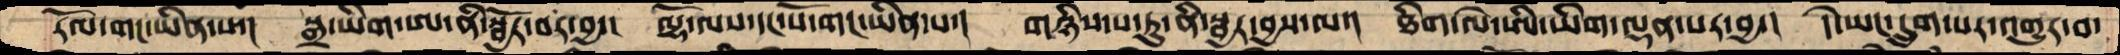རོལ་གང་ཡིན་པ་།  སྒྲ་ཡིག་ཨ་ནི་སྦྱོར་བར་བྱ་།  ལྷོ་ལས་དང་པོ་གང་ཡིན་པ་།  གཉིས་པ་ཏུ་ནི་སྦྱར་བྱས་ལ་།  ཐིག་ལེ་ཨི་ཡིག་ལྡན་པར་བྱ་།  དེ་ཡང་དྲུག་པར་འགྱུར་བ་
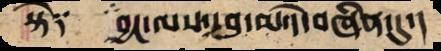སྟེ༑   བྱང་ལས་དབུ་མ་དེ་བཞིན་དུ་།
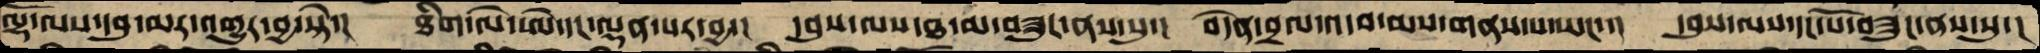ལྷོ་ལས་དབུ་མར་འགྱུར་བྱ་སྟེ་།  ཐིག་ལེ་ཨེ་དང་ལྡན་པར་བྱ་།  དབུས་ལས་ཐ་མ་བཟུང་ནས་སུ་།  བདེན་བྲལ་འདབ་མས་གནས་པ་ཡང་་།  དབུས་ལས་དང་པོ་བཟུང་ནས་སུ་།
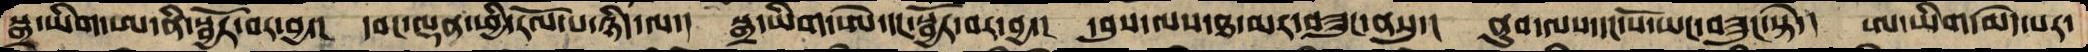སྒྲ་ཡིག་ཨ་ནི་སྦྱོར་བར་བྱ་།  དབང་ལྡན་ཕྱི་རོལ་པ་ཉིད་ལ་།  སྒྲ་ཡིག་ཨེ་དང་སྦྱོར་བར་བྱ་།  དབུས་ལས་ཐ་མར་བཟུང་ནསུ་།  ནུབ་ལས་དང་པོ་ཡང་བཟུང་སྟེ་།  ཨ་ཡིག་མེད་པར་
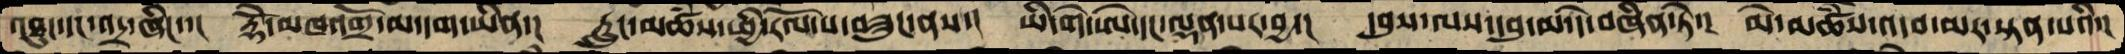འཐུང་དང་འདྲ་ཞིང་་།  རྡོེ་མཁའགྲོ་མ་དག་ཡིན་།   རླུང་མཚཾས་ཕྱི་རོལ་ས་བཟུང་ནས་།  ཡི་གེ་ཨེ་དང་ལྡན་པར་བྱ་།  དབུས་ལས་དབུ་མ་དེ་བཞིན་ཏེ་།  མེ་མཚཾས་འདབ་མར་སྟན་པའི་།
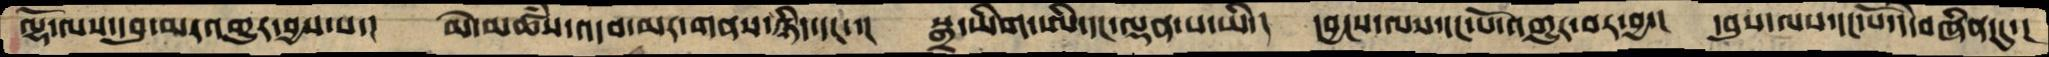ལྷོ་ལས་དབུ་མར་འགྱུར་བྱས་པ་།  མེ་མཚཾས་འདབ་མར་གནས་ཉིད་ང་་།  སྒྲ་ཡིག་ཨི་དང་ལྡན་པ་ཡི་།  དབྱངས་ལས་དང་པོ་འགྱུར་བར་བྱ་།  དབུས་ལས་དང་པོ་དེ་བཞིན་དུ་།
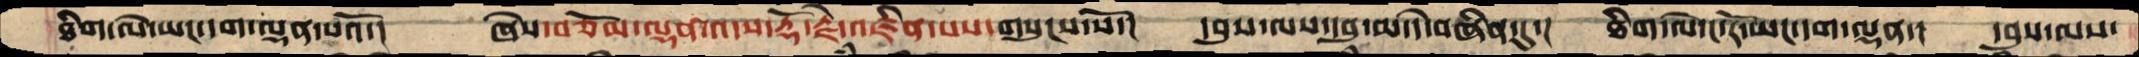ཐིག་ལེ་ཡང་དག་ལྡན་པའོ་།  ཞེས་བཅོམ་ལྡན་འདས་རྡོ་རྗེ་འཛིན་པས་གསུངས་སོ་།  དབུས་ལས་དབུ་མ་དེ་བཞིན་དུ་།  ཐིག་ལེ་ང་རོ་ཡང་དག་ལྡན་།  དབུས་ལས་
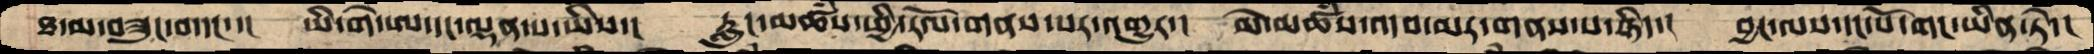ཐ་མ་བཟུང་བ་དང་་།  ཡི་གེ་ཨ་དང་ལྡན་པ་ཡིས་།  རླུང་མཚཾས་ཕྱི་རོལ་གནས་པར་འགྱུར་།  མེ་མཚཾས་འདབ་མར་གནས་པ་ཉིད་།  བྱང་ལས་དང་པོ་གང་ཡིན་ཏེ་།
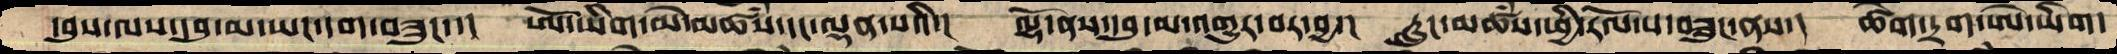དབུས་ལས་དབུ་མ་ཡང་དག་བཟུང་་།  ཨོ་ཡིག་མེ་མཚམས་དང་ལྡན་པའི་།  ལྷོ་ནས་དབུ་མ་འགྱུར་བར་བྱ་།  རླུང་མཚཾས་ཕྱི་རོལ་པ་བཟུང་ནས་།  ཚེག་དྲག་ཨེ་ཡིག་
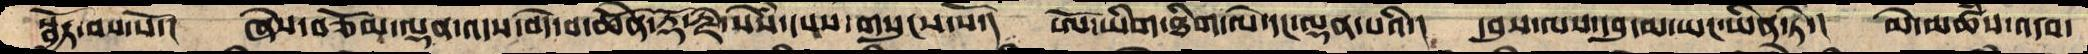སྦྱོར་བས་སོ་།  ཞེས་བཅོམ་ལྡན་འདས་བདེ་བ་ཆེནོ་རྡོ་རྗེ་སེཾས་དཔས་གསུངས་སོ་།  ཨོ་ཡིག་ཐིག་ལེ་དང་ལྡན་པའི་།  དབུས་ལས་དབུ་མ་ཡང་ཡིན་ཏེ་།  མེ་མཚཾས་འདབ་
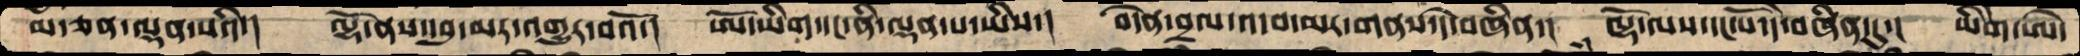མ་ཅན་ལྡན་པའི་།  ལྷོ་ནས་དབུ་མར་འགྱུར་བའོ་།  ཨོ་ཡིག་དང་ནི་ལྡན་པ་ཡིས་།  བདེན་བྲལ་འདབ་མར་གནས་དེ་བཞིན་།  ལྷོ་ལས་དང་པོ་དེ་བཞིན་དུ་།  ཡིགེ་ཨེ་
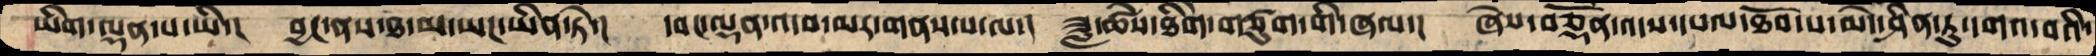ཡིག་ལྡན་པ་ཡི་།  བྱང་ནས་ཐ་མ་ཡང་ཡིན་ཏེ་།  དབང་ལྡན་འདབ་མར་གནས་པ་ལ་།  ཟླ་ཚེས་ཐིགེ་གཙུག་གི་ཞལ་།  ཞེས་བཅྡོན་འདས་དཔལ་ཐོབ་པ་མེད་ཤིན་ཏུ་དགའ་བའི་
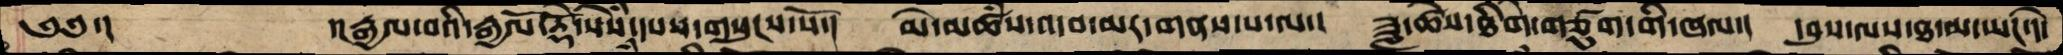༄༅་།   ་།རྒྱལ་བའི་རྒྱལ་པོ་རྡོེ་སེམས་དཔས་གསུངས་སོ་།  མེ་མཚཾས་འདབ་མར་གནས་པ་ལ་།  ཟླ་ཚེས་ཐིགེ་གཙུག་གི་ཞལ་།  དབུས་ལས་ཐ་མ་ཡང་དེ་
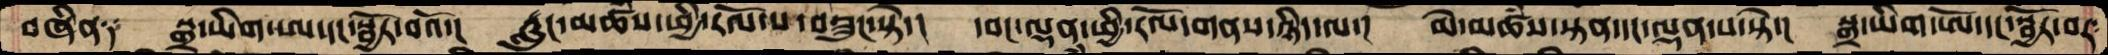བཞིན༑  སྒྲ་ཡིག་ཨ་དང་སྦྱོར་བའོ་།  རླུང་མཚཾས་ཕྱི་རོལ་པ་བཟུང་སྟེ་།  དབང་ལྡན་ཕྱི་རོལ་གནས་ཉིད་ལ་།  མེ་མཚཾས་སྟན་དང་ལྡན་པ་སྟེ་།  སྒྲ་ཡིག་ཨོ་དང་སྦྱོར་བར་
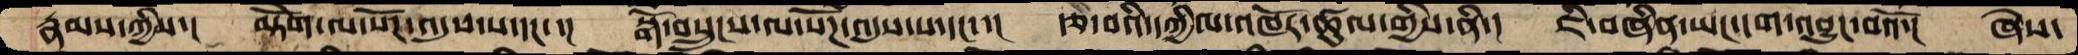རྣམས་ཀྱིས་།  མྟེོག་ལ་སོཌ་འདུས་པ་དང་་།  སྒོ་བསྲུངས་ལ་སོཌ་འདུས་པ་དང་་།  རྩ་བའི་དཀྱིལ་འཁོར་ཚུལ་གྱིས་ནི་།  ཇི་བཞིན་ཡང་དག་འབྱུང་བའོ་།  ཞེས་
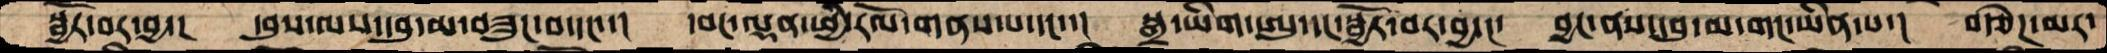སྦྱོར་བར་བྱ་།  དབུས་ལས་དབུ་མ་བཟུང་བ་དང་་།  དབང་ལྡན་ཕྱི་རོལ་གནས་པ་དང་་།  སྒྲ་ཡིག་ཨུ་དང་སྦྱོར་བར་བྱ་།  བྱང་ནས་དབུ་མ་གང་ཡིན་པ་།   བརྩེཌ་མར་
